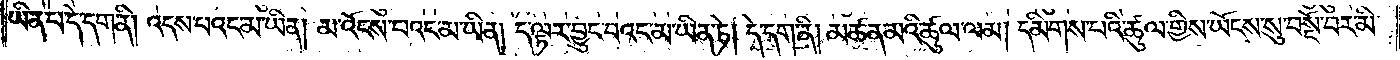ཡིན་པ་དེ་དག་ནི། འདས་པའང་མ་ཡིན། མ་འོངས་པའང་མ་ཡིན། ད་ལྟར་བྱུང་བའང་མ་ཡིན་ཏེ། དེ་དག་ནི། མཚན་མའི་ཚུལ་ལམ། དམིགས་པའི་ཚུལ་གྱིས་ཡོངས་སུ་བསྔོ་བར་མི་
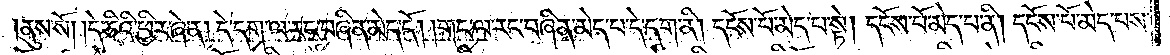ནུས་སོ། །དེ་ཅིའི་ཕྱིར་ཞེ་ན། དེ་དག་ལ་རང་བཞིན་མེད་དོ། །གང་ལ་རང་བཞིན་མེད་པ་དེ་དག་ནི། དངོས་པོ་མེད་པ་སྟེ། དངོས་པོ་མེད་པ་ནི། དངོས་པོ་མེད་པས་
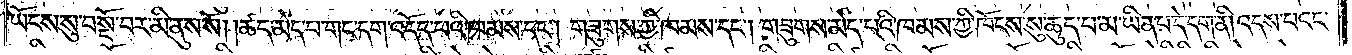ཡོངས་སུ་བསྔོ་བར་མི་ནུས་སོ། །ཚད་མེད་པ་གང་དག་འདོད་པའི་ཁམས་དང༌། གཟུགས་ཀྱི་ཁམས་དང༌། གཟུགས་མེད་པའི་ཁམས་ཀྱི་ཁོངས་སུ་ཆུད་པ་མ་ཡིན་པ་དེ་དག་ནི། འདས་པའང་
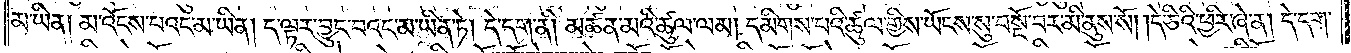མ་ཡིན། མ་འོངས་པའང་མ་ཡིན། ད་ལྟར་བྱུང་བའང་མ་ཡིན་ཏེ། དེ་དག་ནི། མཚན་མའི་ཚུལ་ལམ། དམིགས་པའི་ཚུལ་གྱིས་ཡོངས་སུ་བསྔོ་བར་མི་ནུས་སོ། །དེ་ཅིའི་ཕྱིར་ཞེ་ན། དེ་དག་
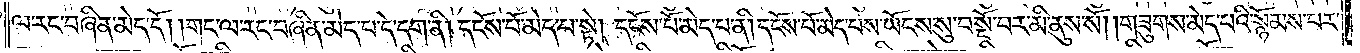ལ་རང་བཞིན་མེད་དོ། །གང་ལ་རང་བཞིན་མེད་པ་དེ་དག་ནི། དངོས་པོ་མེད་པ་སྟེ། དངོས་པོ་མེད་པ་ནི། དངོས་པོ་མེད་པས་ཡོངས་སུ་བསྔོ་བར་མི་ནུས་སོ། །གཟུགས་མེད་པའི་སྙོམས་པར་
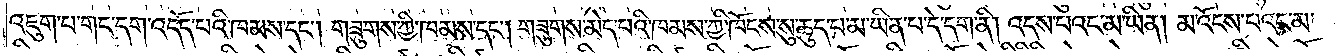འཇུག་པ་གང་དག་འདོད་པའི་ཁམས་དང༌། གཟུགས་ཀྱི་ཁམས་དང༌། གཟུགས་མེད་པའི་ཁམས་ཀྱི་ཁོངས་སུ་ཆུད་པ་མ་ཡིན་པ་དེ་དག་ནི། འདས་པའང་མ་ཡིན། མ་འོངས་པའང་མ་
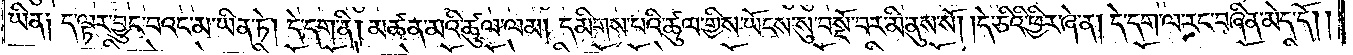ཡིན༑ ད་ལྟར་བྱུང་བའང་མ་ཡིན་ཏེ། དེ་དག་ནི། མཚན་མའི་ཚུལ་ལམ། དམིགས་པའི་ཚུལ་གྱིས་ཡོངས་སུ་བསྔོ་བར་མི་ནུས་སོ། །དེ་ཅིའི་ཕྱིར་ཞེ་ན། དེ་དག་ལ་རང་བཞིན་མེད་དོ༎
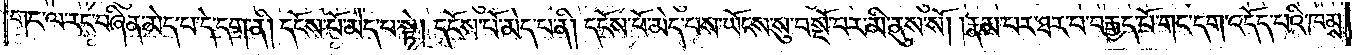གང་ལ་རང་བཞིན་མེད་པ་དེ་དག་ནི། དངོས་པོ་མེད་པ་སྟེ། དངོས་པོ་མེད་པ་ནི། དངོས་པོ་མེད་པས་ཡོངས་སུ་བསྔོ་བར་མི་ནུས་སོ། །རྣམ་པར་ཐར་པ་བརྒྱད་པོ་གང་དག་འདོད་པའི་ཁམས་
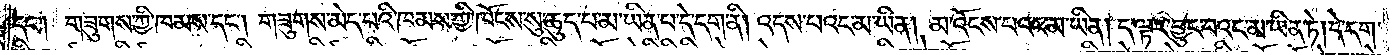དང༌། གཟུགས་ཀྱི་ཁམས་དང༌། གཟུགས་མེད་པའི་ཁམས་ཀྱི་ཁོངས་སུ་ཆུད་པ་མ་ཡིན་པ་དེ་དག་ནི། འདས་པའང་མ་ཡིན། མ་འོངས་པའང་མ་ཡིན། ད་ལྟར་བྱུང་བའང་མ་ཡིན་ཏེ། དེ་དག་
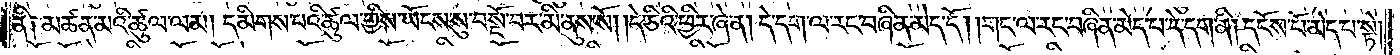ནི༑ མཚན་མའི་ཚུལ་ལམ། དམིགས་པའི་ཚུལ་གྱིས་ཡོངས་སུ་བསྔོ་བར་མི་ནུས་སོ། །དེ་ཅིའི་ཕྱིར་ཞེ་ན། དེ་དག་ལ་རང་བཞིན་མེད་དོ། །གང་ལ་རང་བཞིན་མེད་པ་དེ་དག་ནི། དངོས་པོ་མེད་པ་སྟེ།
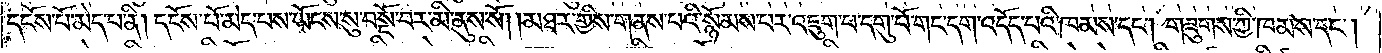དངོས་པོ་མེད་པ་ནི། དངོས་པོ་མེད་པས་ཡོངས་སུ་བསྔོ་བར་མི་ནུས་སོ། །མཐར་གྱིས་གནས་པའི་སྙོམས་པར་འཇུག་པ་དགུ་པོ་གང་དག་འདོད་པའི་ཁམས་དང༌། གཟུགས་ཀྱི་ཁམས་དང༌།
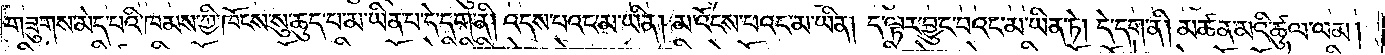གཟུགས་མེད་པའི་ཁམས་ཀྱི་ཁོངས་སུ་ཆུད་པ་མ་ཡིན་པ་དེ་དག་ནི། འདས་པའང་མ་ཡིན། མ་འོངས་པའང་མ་ཡིན། ད་ལྟར་བྱུང་བའང་མ་ཡིན་ཏེ། དེ་དག་ནི། མཚན་མའི་ཚུལ་ལམ།
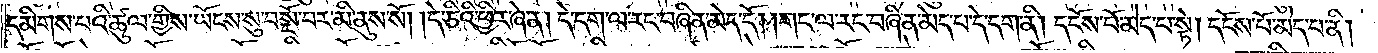དམིགས་པའི་ཚུལ་གྱིས་ཡོངས་སུ་བསྔོ་བར་མི་ནུས་སོ། །དེ་ཅིའི་ཕྱིར་ཞེ་ན། དེ་དག་ལ་རང་བཞིན་མེད་དོ། །གང་ལ་རང་བཞིན་མེད་པ་དེ་དག་ནི། དངོས་པོ་མེད་པ་སྟེ། དངོས་པོ་མེད་པ་ནི།
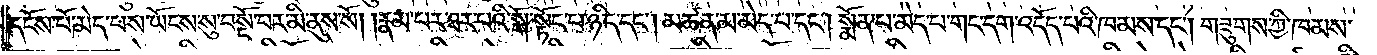དངོས་པོ་མེད་པས་ཡོངས་སུ་བསྔོ་བར་མི་ནུས་སོ། །རྣམ་པར་ཐར་པའི་སྒོ་སྟོང་པ་ཉིད་དང༌། མཚན་མ་མེད་པ་དང༌། སྨོན་པ་མེད་པ་གང་དག་འདོད་བའི་ཁམས་དང༌། གཟུགས་ཀྱི་ཁམས་
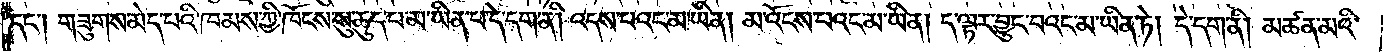དང༌། གཟུགས་མེད་པའི་ཁམས་ཀྱི་ཁོངས་སུ་ཆུད་པ་མ་ཡིན་པ་དེ་དག་ནི། འདས་པའང་མ་ཡིན། མ་འོངས་པའང་མ་ཡིན། ད་ལྟར་བྱུང་བའང་མ་ཡིན་ཏེ། དེ་དག་ནི། མཚན་མའི་
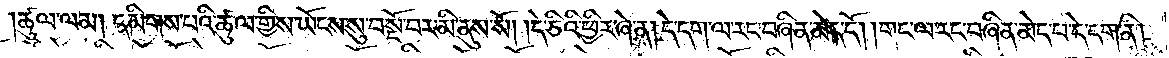ཚུལ་ལམ། དམིགས་པའི་ཚུལ་གྱིས་ཡོངས་སུ་བསྔོ་བར་མི་ནུས་སོ། །དེ་ཅིའི་ཕྱིར་ཞེ་ན། དེ་དག་ལ་རང་བཞིན་མེད་དོ། །གང་ལ་རང་བཞིན་མེད་པ་དེ་དག་ནི།
